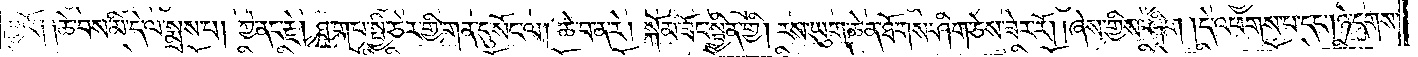བྱའོ༑ ༑ཆེ་བས་མི་དེ་ལ་སྨྲས་པ། ཀྱེ་ནང་རྗེ། ཐ་ག་པ་སྤྱི་ཅེར་གྱི་གན་དུ་སོང་ལ། ཆེ་བ་ན་རེ། སྐོམ་ཟོང་སྦྱིན་གྱི། རས་ཡུག་ཆེན་ཐོགས་ཤིག་ཅེས་ཟེར་རོ། །ཞེས་གྱིས་ཤིག །དེ་འཕགས་པ་དང༌། ཉེ་དགས་
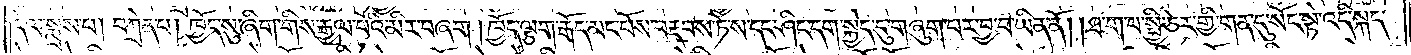དེ་ལ་སྨྲས་པ། བཀྲེན་པ། ཁྱོད་སུ་ཞིག་གིས་རྒྱལ་པོའི་མིར་བཞག །ཁྱོད་ལྕག་རྒོད་མང་པོས་བརྡབས་ཏེ་ས་དང་ཤིང་དག་སྐྱེད་དུ་གཞུག་པར་བྱ་བ་ཡིན་ནོ། །ཐག་པ་སྤྱི་ཅེར་གྱི་གན་དུ་སོང་སྟེ་འདི་སྐད་
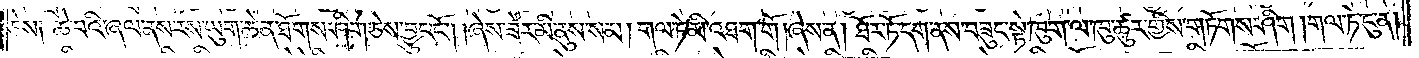ཅེས༑ ཆེ་བའི་ཞལ་ནས་རས་ཡུག་ཆེན་ཐོགས་ཤིག་ཅེས་བྱུང་ངོ༌། །ཞེས་ཟེར་མི་ནུས་སམ། གལ་ཏེ་མི་འཐག་གོ །ཞེས་ན། ཐོར་ཏོ་དག་ནས་བཟུང་སྟེ་ཁུག་ལ་ཁུ་ཚུར་གྱིས་གཏོགས་ཤིག །གལ་ཏེ་ངུ་ན།
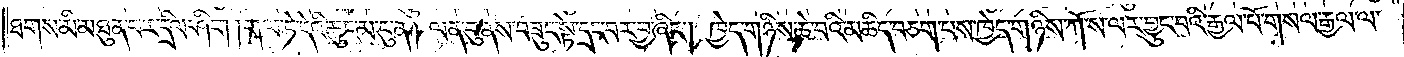ཐགས་མི་མཐུན་པར་དྲིལ་ཤིག །གལ་ཏེ་དེའི་ཆུང་མ་ངུ་ན། ལན་བུ་ནས་བཟུང་སྟེ་དྲང་བར་བྱ་ཞིང༌། ཁྱེད་གཉིས་ཆེ་བའི་མཆིད་བཅག་པས་ཁྱེད་གཉིས་ཀོ་ས་ལར་བྱུང་བའི་རྒྱལ་པོ་གསལ་རྒྱལ་ལ་
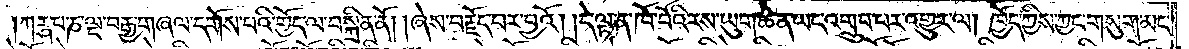ཀཪྴ་པ་ཎ་ལྔ་བརྒྱ་གཞལ་དགོས་པའི་གྱོད་ལ་བསྐྲིན་ནོ། །ཞེས་བརྗོད་པར་བྱའོ། །དེ་ལྟ་ན་ཁོ་བོའི་རས་ཡུག་ཆེན་ཡང་འགྲུབ་པར་འགྱུར་ལ། ཁྱོད་ཀྱིས་ཀྱང་གསུག་མང་
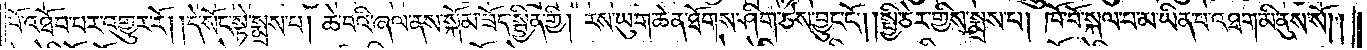པོ་འཐོབ་པར་འགྱུར་རོ། །དེ་སོང་སྟེ་སྨྲས་པ། ཆེ་བའི་ཞལ་ནས་སྐོམ་ཟོད་སྦྱིན་གྱི། རས་ཡུག་ཆེན་ཐོགས་ཤིག་ཅེས་བྱུང་ངོ༌། །སྤྱི་ཅེར་གྱིས་སྨྲས་པ། ཁོ་བོ་སྐལ་པ་མ་ཡིན་པ་འཐག་མི་ནུས་སོ། །
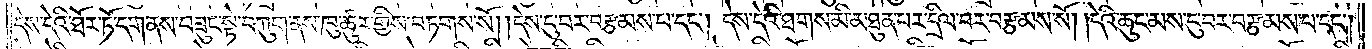དེས་དེའི་ཐོར་ཏོ་དག་ནས་བཟུང་སྟེ་བཀུག་ནས་ཁུ་ཚུར་གྱིས་བཏགས་སོ། །དེས་ངུ་བར་བརྩམས་པ་དང༌། དེས་དེའི་ཐགས་མི་མཐུན་པར་དྲིལ་བར་བརྩམས་སོ། །དེའི་ཆུང་མས་ངུ་བར་བརྩམས་པ་དང༌།
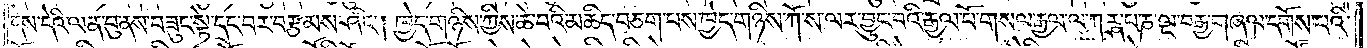དེས་དེའི་ལན་བུ་ནས་བཟུང་སྟེ་དྲང་བར་བརྩམས་ཤིང༌། ཁྱེད་གཉིས་ཀྱིས་ཆེ་བའི་མཆིད་བཅག་པས་ཁྱེད་གཉིས་ཀོ་ས་ལར་བྱུང་བའི་རྒྱལ་པོ་གསལ་རྒྱལ་ལ་ཀཪྴ་པ་ཎ་ལྔ་བརྒྱ་གཞལ་དགོས་པའི་
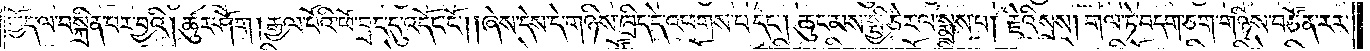གྱོད་ལ་བསྐྲིན་པར་བྱའི། ཚུར་ཤོག །རྒྱལ་པོའི་ཕོ་བྲང་དུ་འདོང་ངོ༌། །ཞེས་དེས་དེ་གཉིས་ཁྲིད་དེ་འཕགས་པ་དང༌། ཆུང་མས་སྤྱི་ཅེར་ལ་སྨྲས་པ། རྗེའི་སྲས། གལ་ཏེ་བདག་ཅག་གཉིས་བཙོན་རར་
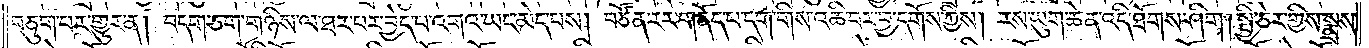བཅུག་པར་གྱུར་ན། བདག་ཅག་གཉིས་ལ་ཐར་པར་བྱེད་པ་འགའ་ཡང་མེད་པས། བཙོན་རར་གནོད་པ་དག་གིས་འཆི་བར་བྱ་དགོས་ཀྱིས། རས་ཡུག་ཆེན་འདི་ཐོགས་ཤིག། སྤྱི་ཅེར་གྱིས་སྨྲས་
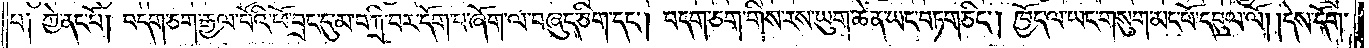པ༑ ཀྱེ་ནང་པོ། བདག་ཅག་རྒྱལ་པོའི་ཕོ་བྲང་དུ་མ་བཀྲི་བར་དོག་པ་ཞོག་ལ་བཞུད་ཅིག་དང༌། བདག་ཅག་གིས་རས་ཡུག་ཆེན་ཡང་བཏག་ཅིང༌། ཁྱོད་ལ་ཡང་གསུག་མང་པོ་དབུལ་ལོ། །དེས་དོག་
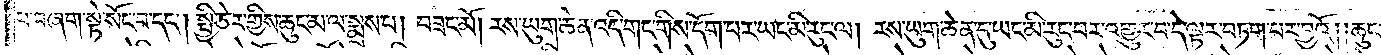པ་བཞག་སྟེ་སོང་བ་དང༌། སྤྱི་ཅེར་གྱིས་ཆུང་མ་ལ་སྨྲས་པ། བཟང་མོ། རས་ཡུག་ཆེན་འདི་གང་གིས་དོག་པར་ཡང་མི་རུང་ལ། རས་ཡུག་ཆེན་དུ་ཡང་མི་རུང་བར་འགྱུར་བ་དེ་ལྟར་བཏག་པར་བྱའོ། །ཆུང་
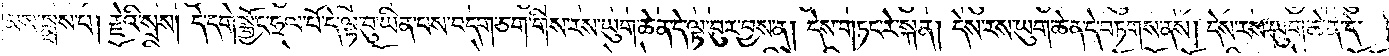མས་སྨྲས་པ། རྗེའི་སྲས། དེ་དགེ་སྦྱོང་ཧྲལ་པོ་དེ་ལྟ་བུ་ཡིན་པས་བདག་ཅག་གིས་རས་ཡུག་ཆེན་དེ་ལྟ་བུར་བྱས་ན། དེས་གཏང་རེ་སྐན། དེས་རས་ཡུག་ཆེན་དེ་བཏགས་ནས། དེས་རས་ཡུག་ཆེན་དེ་
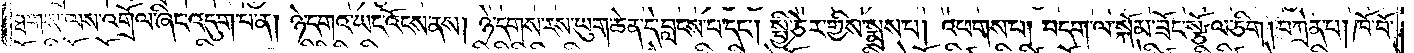ཐགས་ལས་འགྲོལ་ཞིང་འདུག་པ་ན། ཉེ་དགའ་ཡང་འོངས་ནས། ཉེ་དགས་རས་ཡུག་ཆེན་དེ་བླངས་པ་དང༌། སྤྱི་ཅེར་གྱིས་སྨྲས་པ། འཕགས་པ། བདག་ལ་སྐོམ་ཟོང་སྩོལ་ཅིག །བཀྲེན་པ། ཁོ་བོ་
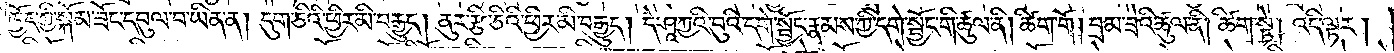ཁྱོད་ཀྱི་སྐོམ་ཟོང་དབུལ་བ་ཡིན་ན། དུག་ཅིའི་ཕྱིར་མི་བརྒྱུད། ནུར་རྩི་ཅིའི་ཕྱིར་མི་བརྒྱུད། དེ་ཤཱཀྱའི་བུའི་དགེ་སྦྱོང་རྣམས་ཀྱི་དགེ་སྦྱོང་གི་ཚུལ་ནི། ཚིག་གོ། བྲམ་ཟེའི་ཚུལ་ནི། ཚིག་སྟེ། འདི་ལྟར།
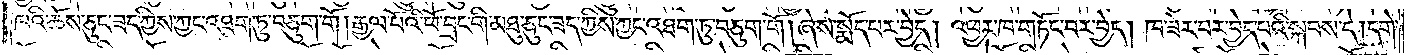ཁའི་ཆོས་ཅུང་ཟད་ཀྱིས་ཀྱང་འཐག་ཏུ་བཅུག་གོ །རྒྱལ་པོའི་ཕོ་བྲང་གི་མཐུ་ཅུང་ཟད་ཀྱིས་ཀྱང་འཐག་ཏུ་བཅུག་གོ །ཞེས་སྨོད་པར་བྱེད། འཕྱར་ཁ་གཏོང་བར་བྱེད། ཁ་ཟེར་བར་བྱེད་པའི་སྐབས་དེ། དགེ་
